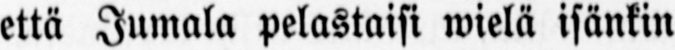että Jumala pelastaisi wielä isänkin
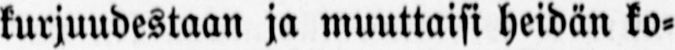kurjuudestaan ja muuttaisi heidän ko-
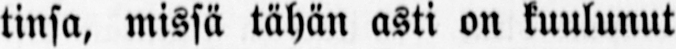tinsa, missä tähän asti on kuulunut
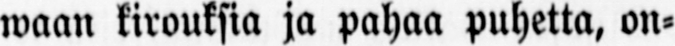waan kirouksia ja pahaa puhetta, on-
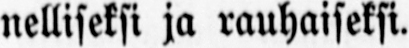nelliseksi ja rauhaiseksi.
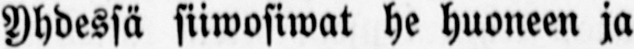Yhdessä siiwosiwat he huoneen ja
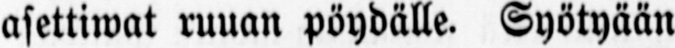asettiwat ruuan pöydälle. Syötyään
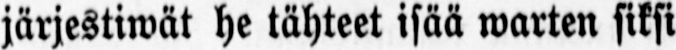järjestiwät he tähteet isää warten siksi
